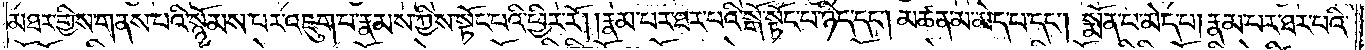མཐར་གྱིས་གནས་པའི་སྙོམས་པར་འཇུག་པ་རྣམས་ཀྱིས་སྟོང་པའི་ཕྱིར་རོ། །རྣམ་པར་ཐར་པའི་སྒོ་སྟོང་པ་ཉིད་དང༌། མཚན་མ་མེད་པ་དང༌། སྨོན་པ་མེད་པ། རྣམ་པར་ཐར་པའི་
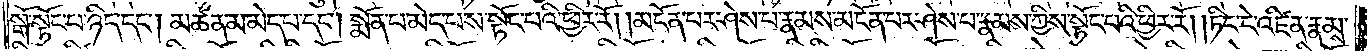སྒོ་སྟོང་པ་ཉིད་དང༌། མཚན་མ་མེད་པ་དང༌། སྨོན་པ་མེད་པས་སྟོང་པའི་ཕྱིར་རོ། །མངོན་པར་ཤེས་པ་རྣམས་མངོན་པར་ཤེས་པ་རྣམས་ཀྱིས་སྟོང་པའི་ཕྱིར་རོ། །ཏིང་ངེ་འཛིན་རྣམས་
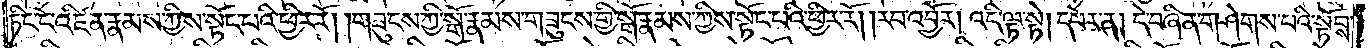ཏིང་ངེ་འཛིན་རྣམས་ཀྱིས་སྟོང་པའི་ཕྱིར་རོ། །གཟུངས་ཀྱི་སྒོ་རྣམས་གཟུངས་ཀྱི་སྒོ་རྣམས་ཀྱིས་སྟོང་པའི་ཕྱིར་རོ། །རབ་འབྱོར། འདི་ལྟ་སྟེ། དཔེར་ན། དེ་བཞིན་གཤེགས་པའི་སྟོབས་
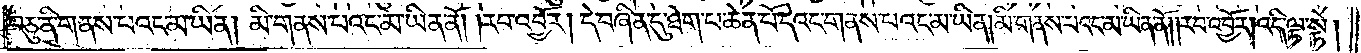བཅུ་ནི་གནས་པའང་མ་ཡིན། མི་གནས་པའང་མ་ཡིན་ནོ། །རབ་འབྱོར། དེ་བཞིན་དུ་ཐེག་པ་ཆེན་པོ་དེའང་གནས་པའང་མ་ཡིན། མི་གནས་པའང་མ་ཡིན་ནོ། །རབ་འབྱོར། འདི་ལྟ་སྟེ།
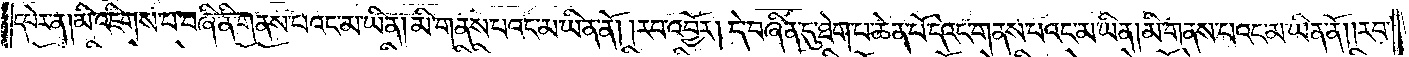དཔེར་ན། མི་འཇིགས་པ་བཞི་ནི་གནས་པའང་མ་ཡིན། མི་གནས་པའང་མ་ཡིན་ནོ། །རབ་འབྱོར། དེ་བཞིན་དུ་ཐེག་པ་ཆེན་པོ་དེའང་གནས་པའང་མ་ཡིན། མི་གནས་པའང་མ་ཡིན་ནོ། །རབ་
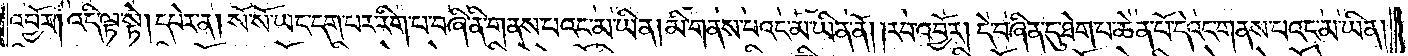འབྱོར། འདི་ལྟ་སྟེ། དཔེར་ན། སོ་སོ་ཡང་དག་པར་རིག་པ་བཞི་ནི་གནས་པའང་མ་ཡིན། མི་གནས་པའང་མ་ཡིན་ནོ། །རབ་འབྱོར། དེ་བཞིན་དུ་ཐེག་པ་ཆེན་པོ་དེའང་གནས་པའང་མ་ཡིན།
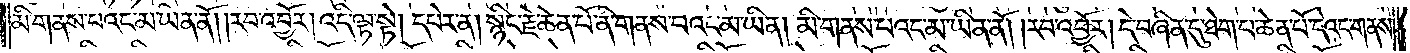མི་གནས་པའང་མ་ཡིན་ནོ། །རབ་འབྱོར། འདི་ལྟ་སྟེ། དཔེར་ན། སྙིང་རྗེ་ཆེན་པོ་ནི་གནས་པའང་མ་ཡིན། མི་གནས་པའང་མ་ཡིན་ནོ། །རབ་འབྱོར། དེ་བཞིན་དུ་ཐེག་པ་ཆེན་པོ་དེའང་གནས་
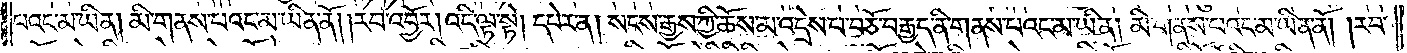པའང་མ་ཡིན། མི་གནས་པའང་མ་ཡིན་ནོ། །རབ་འབྱོར། འདི་ལྟ་སྟེ། དཔེར་ན། སངས་རྒྱས་ཀྱི་ཆོས་མ་འདྲེས་པ་བཅོ་བརྒྱད་ནི་གནས་པའང་མ་ཡིན། མི་གནས་པའང་མ་ཡིན་ནོ། །རབ་
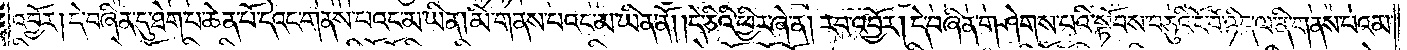འབྱོར། དེ་བཞིན་དུ་ཐེག་པ་ཆེན་པོ་དེའང་གནས་པའང་མ་ཡིན། མི་གནས་པའང་མ་ཡིན་ནོ། །དེ་ཅིའི་ཕྱིར་ཞེ་ན། རབ་འབྱོར། དེ་བཞིན་གཤེགས་པའི་སྟོབས་བཅུའི་ངོ་བོ་ཉིད་ལ་ནི་གནས་པའམ་
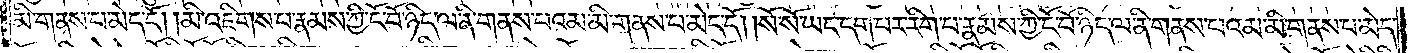མི་གནས་པ་མེད་དོ། །མི་འཇིགས་པ་རྣམས་ཀྱི་ངོ་བོ་ཉིད་ལ་ནི་གནས་པའམ་མི་གནས་པ་མེད་དོ། །སོ་སོ་ཡང་དག་པར་རིག་པ་རྣམས་ཀྱི་ངོ་བོ་ཉིད་ལ་ནི་གནས་པའམ་མི་གནས་པ་མེད་
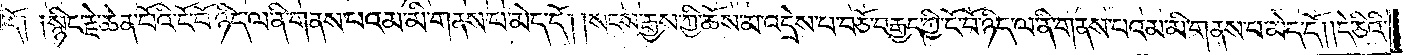དོ༑ ༑སྙིང་རྗེ་ཆེན་པོའི་ངོ་བོ་ཉིད་ལ་ནི་གནས་པའམ་མི་གནས་པ་མེད་དོ། །སངས་རྒྱས་ཀྱི་ཆོས་མ་འདྲེས་པ་བཅོ་བརྒྱད་ཀྱི་ངོ་བོ་ཉིད་ལ་ནི་གནས་པ་འམ་མི་གནས་པ་མེད་དོ། །དེ་ཅིའི་
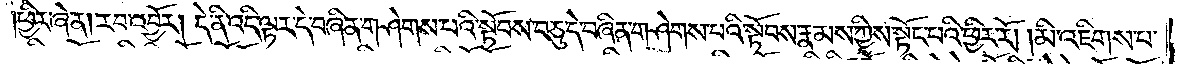ཕྱིར་ཞེ་ན། རབ་འབྱོར། དེ་ནི་འདི་ལྟར་དེ་བཞིན་གཤེགས་པའི་སྟོབས་བཅུ་དེ་བཞིན་གཤེགས་པའི་སྟོབས་རྣམས་ཀྱིས་སྟོང་པའི་ཕྱིར་རོ། །མི་འཇིགས་པ་
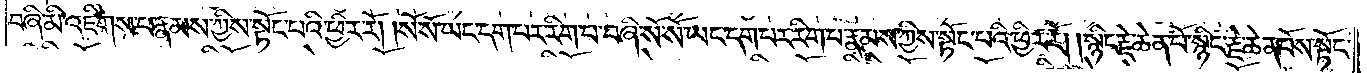བཞི་མི་འཇིགས་པ་རྣམས་ཀྱིས་སྟོང་པའི་ཕྱིར་རོ། །སོ་སོ་ཡང་དག་པར་རིག་པ་བཞི་སོ་སོ་ཡང་དག་པར་རིག་པ་རྣམས་ཀྱིས་སྟོང་པའི་ཕྱིར་རོ། །སྙིང་རྗེ་ཆེན་པོ་སྙིང་རྗེ་ཆེན་པོས་སྟོང་
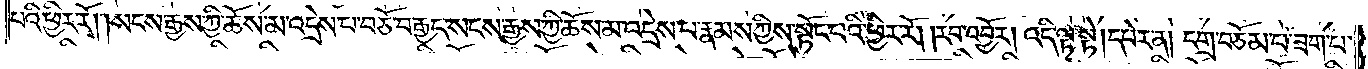པའི་ཕྱིར་རོ། །སངས་རྒྱས་ཀྱི་ཆོས་མ་འདྲེས་པ་བཅོ་བརྒྱད་སངས་རྒྱས་ཀྱི་ཆོས་མ་འདྲེས་པ་རྣམས་ཀྱིས་སྟོང་པའི་ཕྱིར་རོ། །རབ་འབྱོར། འདི་ལྟ་སྟེ། དཔེར་ན། དགྲ་བཅོམ་པ་ཟག་པ་
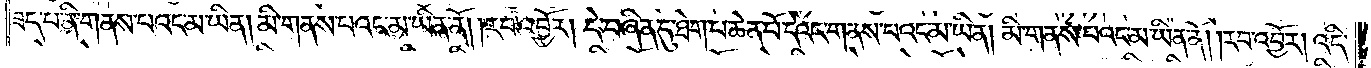ཟད་པ་ནི་གནས་པའང་མ་ཡིན། མི་གནས་པའང་མ་ཡིན་ནོ། །རབ་འབྱོར། དེ་བཞིན་དུ་ཐེག་པ་ཆེན་པོ་དེའང་གནས་པའང་མ་ཡིན། མི་གནས་པའང་མ་ཡིན་ནོ། །རབ་འབྱོར། འདི་
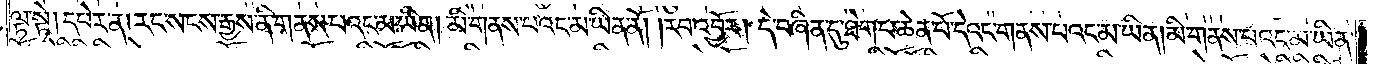ལྟ་སྟེ། དཔེར་ན། རང་སངས་རྒྱས་ནི་གནས་པའང་མ་ཡིན། མི་གནས་པའང་མ་ཡིན་ནོ། །རབ་འབྱོར། དེ་བཞིན་དུ་ཐེག་པ་ཆེན་པོ་དེའང་གནས་པའང་མ་ཡིན། མི་གནས་པའང་མ་ཡིན་
